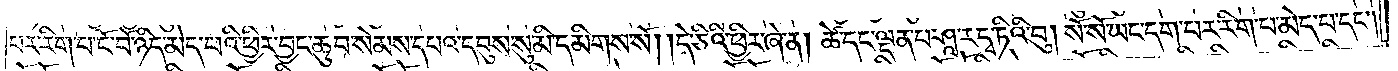པར་རིག་པ་ངོ་བོ་ཉིད་མེད་པའི་ཕྱིར་བྱང་ཆུབ་སེམས་དཔའ་དབུས་སུ་མི་དམིགས་སོ། །དེ་ཅིའི་ཕྱིར་ཞེ་ན། ཚེ་དང་ལྡན་པ་ཤཱ་རདྭ་ཏིའི་བུ། སོ་སོ་ཡང་དག་པར་རིག་པ་མེད་པ་དང༌།
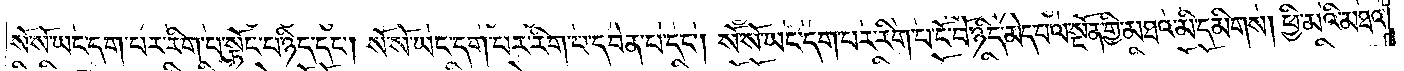སོ་སོ་ཡང་དག་པར་རིག་པ་སྟོང་པ་ཉིད་དང༌། སོ་སོ་ཡང་དག་པར་རིག་པ་དབེན་པ་དང༌། སོ་སོ་ཡང་དག་པར་རིག་པ་ངོ་བོ་ཉིད་མེད་པ་ལ་སྔོན་གྱི་མཐའ་མི་དམིགས། ཕྱི་མའི་མཐའ་
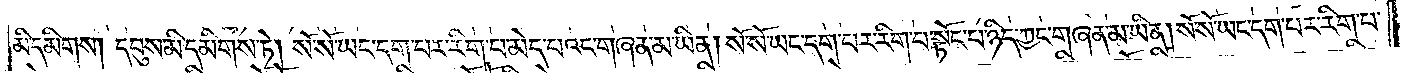མི་དམིགས། དབུས་མི་དམིགས་ཏེ། སོ་སོ་ཡང་དག་པར་རིག་པ་མེད་པའང་གཞན་མ་ཡིན། སོ་སོ་ཡང་དག་པར་རིག་པ་སྟོང་པ་ཉིད་ཀྱང་གཞན་མ་ཡིན། སོ་སོ་ཡང་དག་པར་རིག་པ་
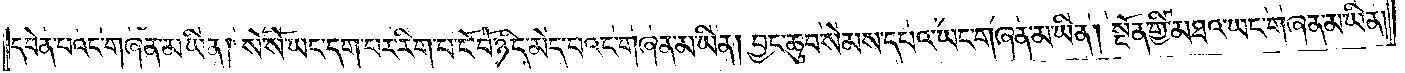དབེན་པའང་གཞན་མ་ཡིན། སོ་སོ་ཡང་དག་པར་རིག་པ་ངོ་བོ་ཉིད་མེད་པའང་གཞན་མ་ཡིན། བྱང་ཆུབ་སེམས་དཔའ་ཡང་གཞན་མ་ཡིན། སྔོན་གྱི་མཐའ་ཡང་གཞན་མ་ཡིན།
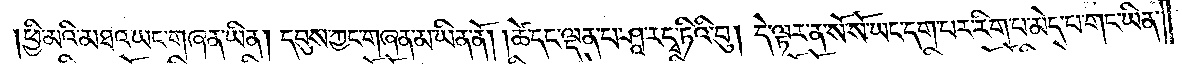ཕྱི་མའི་མཐའ་ཡང་གཞན་མ་ཡིན། དབུས་ཀྱང་གཞན་མ་ཡིན་ནོ། །ཚེ་དང་ལྡན་པ་ཤཱ་རདྭ་ཏིའི་བུ། དེ་ལྟར་ན་སོ་སོ་ཡང་དག་པར་རིག་པ་མེད་པ་གང་ཡིན་
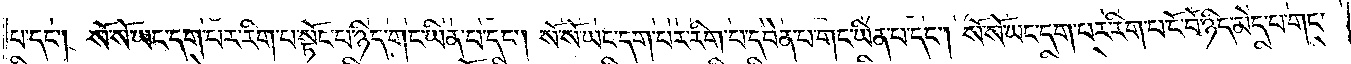པ་དང༌། སོ་སོ་ཡང་དག་པར་རིག་པ་སྟོང་པ་ཉིད་གང་ཡིན་པ་དང༌། སོ་སོ་ཡང་དག་པར་རིག་པ་དབེན་པ་གང་ཡིན་པ་དང༌། སོ་སོ་ཡང་དག་པར་རིག་པ་ངོ་བོ་ཉིད་མེད་པ་གང་
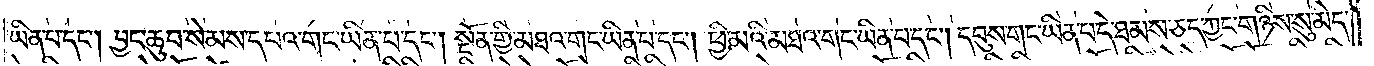ཡིན་པ་དང༌། བྱང་ཆུབ་སེམས་དཔའ་གང་ཡིན་པ་དང༌། སྔོན་གྱི་མཐའ་གང་ཡིན་པ་དང༌། ཕྱི་མའི་མཐའ་གང་ཡིན་པ་དང༌། དབུས་གང་ཡིན་པ་དེ་ཐམས་ཅད་ཀྱང་གཉིས་སུ་མེད་
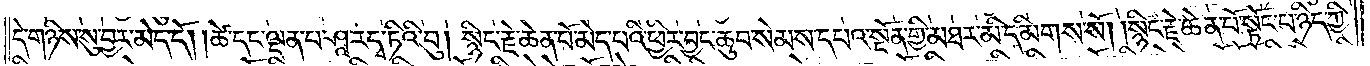དེ་གཉིས་སུ་བྱར་མེད་དོ། །ཚེ་དང་ལྡན་པ་ཤཱ་རདྭ་ཏིའི་བུ། སྙིང་རྗེ་ཆེན་པོ་མེད་པའི་ཕྱིར་བྱང་ཆུབ་སེམས་དཔའ་སྔོན་གྱི་མཐར་མི་དམིགས་སོ། །སྙིང་རྗེ་ཆེན་པོ་སྟོང་པ་ཉིད་ཀྱི་
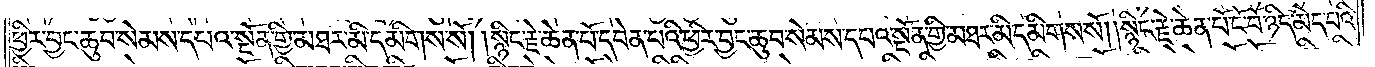ཕྱིར་བྱང་ཆུབ་སེམས་དཔའ་སྔོན་གྱི་མཐར་མི་དམིགས་སོ། །སྙིང་རྗེ་ཆེན་པོ་དབེན་པའི་ཕྱིར་བྱང་ཆུབ་སེམས་དཔའ་སྔོན་གྱི་མཐར་མི་དམིགས་སོ། །སྙིང་རྗེ་ཆེན་པོ་ངོ་བོ་ཉིད་མེད་པའི་
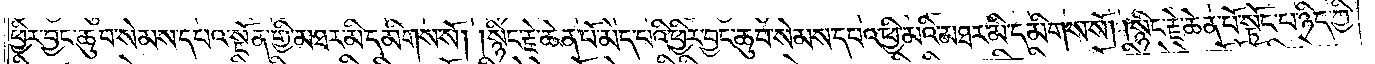ཕྱིར་བྱང་ཆུབ་སེམས་དཔའ་སྔོན་གྱི་མཐར་མི་དམིགས་སོ། །སྙིང་རྗེ་ཆེན་པོ་མེད་པའི་ཕྱིར་བྱང་ཆུབ་སེམས་དཔའ་ཕྱི་མའི་མཐར་མི་དམིགས་སོ། །སྙིང་རྗེ་ཆེན་པོ་སྟོང་པ་ཉིད་ཀྱི་
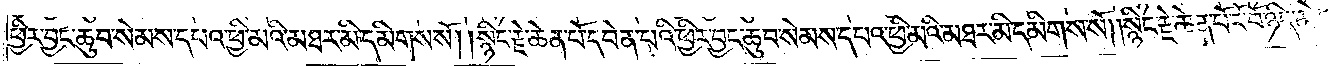ཕྱིར་བྱང་ཆུབ་སེམས་དཔའ་ཕྱི་མའི་མཐར་མི་དམིགས་སོ། །སྙིང་རྗེ་ཆེན་པོ་དབེན་པའི་ཕྱིར་བྱང་ཆུབ་སེམས་དཔའ་ཕྱི་མའི་མཐར་མི་དམིགས་སོ། །སྙིང་རྗེ་ཆེན་པོ་ངོ་བོ་ཉིད་མེད་
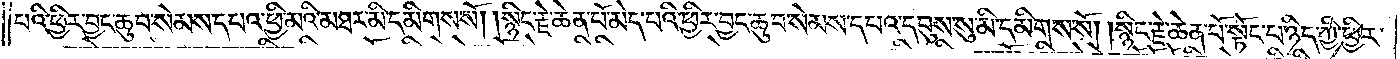པའི་ཕྱིར་བྱང་ཆུབ་སེམས་དཔའ་ཕྱི་མའི་མཐར་མི་དམིགས་སོ། །སྙིང་རྗེ་ཆེན་པོ་མེད་པའི་ཕྱིར་བྱང་ཆུབ་སེམས་དཔའ་དབུས་སུ་མི་དམིགས་སོ། །སྙིང་རྗེ་ཆེན་པོ་སྟོང་པ་ཉིད་ཀྱི་ཕྱིར་
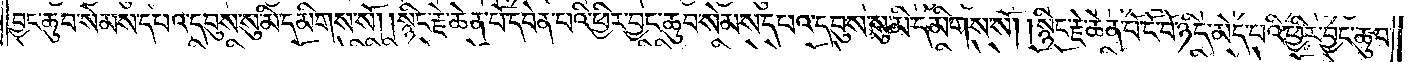བྱང་ཆུབ་སེམས་དཔའ་དབུས་སུ་མི་དམིགས་སོ། །སྙིང་རྗེ་ཆེན་པོ་དབེན་པའི་ཕྱིར་བྱང་ཆུབ་སེམས་དཔའ་དབུས་སུ་མི་དམིགས་སོ། །སྙིང་རྗེ་ཆེན་པོ་ངོ་བོ་ཉིད་མེད་པའི་ཕྱིར་བྱང་ཆུབ་
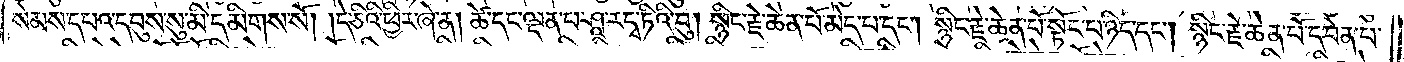སེམས་དཔའ་དབུས་སུ་མི་དམིགས་སོ། །དེ་ཅིའི་ཕྱིར་ཞེ་ན། ཚེ་དང་ལྡན་པ་ཤཱ་རདྭ་ཏིའི་བུ། སྙིང་རྗེ་ཆེན་པོ་མེད་པ་དང༌། སྙིང་རྗེ་ཆེན་པོ་སྟོང་པ་ཉིད་དང༌། སྙིང་རྗེ་ཆེན་པོ་དབེན་པ་
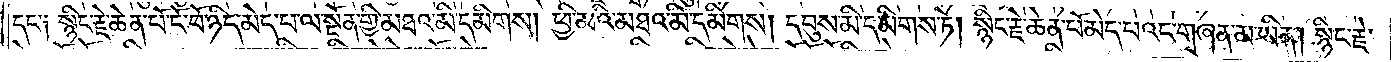དང་༑ སྙིང་རྗེ་ཆེན་པོ་ངོ་བོ་ཉིད་མེད་པ་ལ་སྔོན་གྱི་མཐའ་མི་དམིགས། ཕྱི་མའི་མཐའ་མི་དམིགས། དབུས་མི་དམིགས་ཏེ། སྙིང་རྗེ་ཆེན་པོ་མེད་པའང་གཞན་མ་ཡིན། སྙིང་རྗེ་
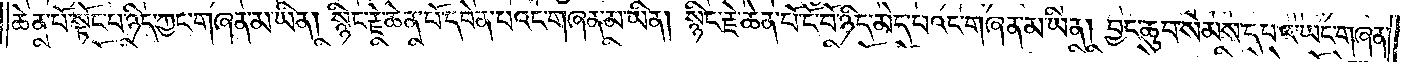ཆེན་པོ་སྟོང་པ་ཉིད་ཀྱང་གཞན་མ་ཡིན། སྙིང་རྗེ་ཆེན་པོ་དབེན་པའང་གཞན་མ་ཡིན། སྙིང་རྗེ་ཆེན་པོ་ངོ་བོ་ཉིད་མེད་པའང་གཞན་མ་ཡིན། བྱང་ཆུབ་སེམས་དཔའ་ཡང་གཞན་
